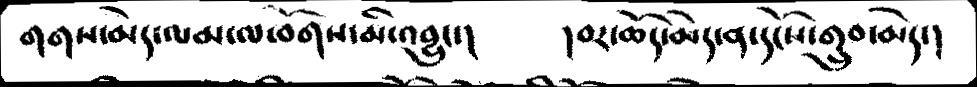གགས་མེད་ལམ་ལ་བོགས་མི་འབྱུང་།    །བར་ཆོད་མེད་ན་དངོས་གྲུབ་མེད་།
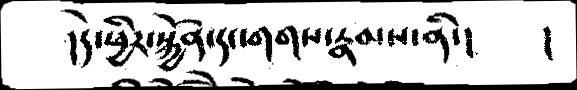།དེ་ཕྱིར་སྐྱོན་དང་གགས་རྣམས་ནི་།     །
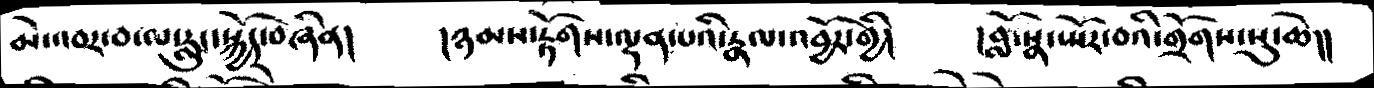མེ་འབར་བ་ལ་རླུང་སྐྱོད་བཞིན།    །ཉམས་རྟོགས་ལྡན་པའི་རྣལ་འབྱོར་གྱི།   །བློ་སྣ་སྤོར་བའི་གྲོགས་སུ་ཆེ།།
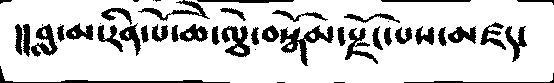།། བླ་མ་རིན་པོ་ཆེ་ལྕེ་བསྒོམ་སྫོང་པས་མཛད་
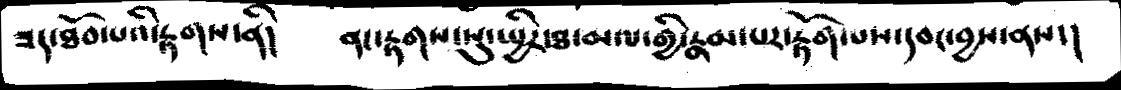ཟད་ཐོབ་པའི་རྟགས་ནི།     ནང་རྟགས་སུ་ཡྱིར་ཐ་མལ་གྱི་རྣམ་པར་རྟོག་པས་དབང་བྱས་ནས་།
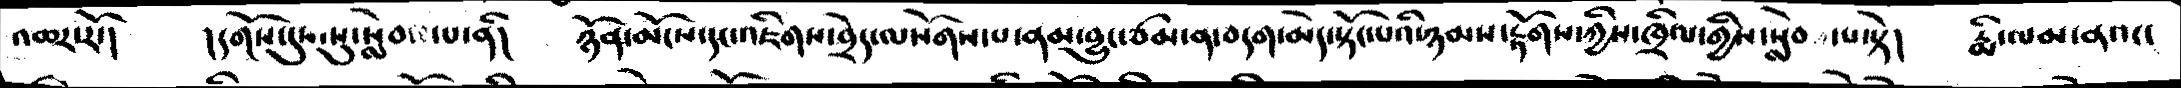འཆར་རོ་།   །དགོས་དུས་སུ་སླེབས་པ་ནི།   ཉོན་མོངས་དང་འཇིགས་བྲེད་ལསོགས་པ་ནས་བྱུང་ཙམ་ན་བདག་མེད་སྟོང་པའི་ཉམས་རྟོགས་ཀྱིས་ཁྲིལ་གྱིས་སླེབ ་པ་སྟེ།  རྨི་ལམ་ནའང་
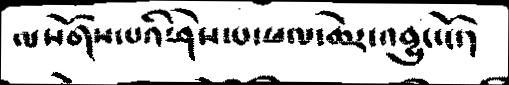ལསོགས་པའི་ཤེས་པ་ཕལ་ཆེར་འབྱུང་ངོ་།
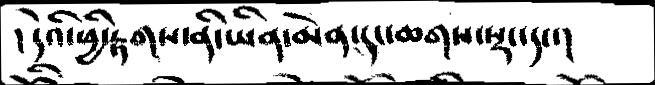། དེའི་ཕྱི་རྟགས་ནི་ཡིན་མེམ་དང་ཆགས་སྡང་དང་།
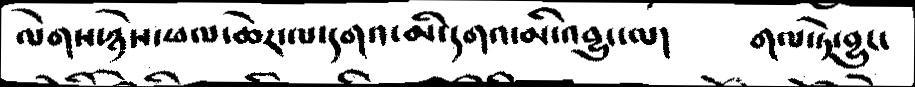ལེགས་ཉེས་ཕལ་ཆེར་ལ་དགའ་མི་དགའ་མི་འབྱུང་ལ།    གལ་ཏེ་བྱུང་
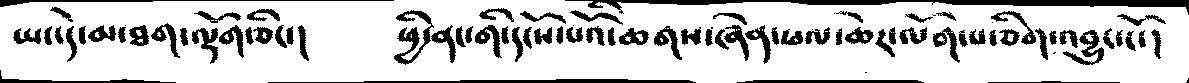ཡང་དེ་མ་ཐག་ལྡོག་ཅིང་།      ཕྱི་ནང་གི་དངོས་པོའི་ཆགས་ཞེན་ཕལ་ཆེར་ལོག་པ་ཅིག་འབྱུང་ངོ་།
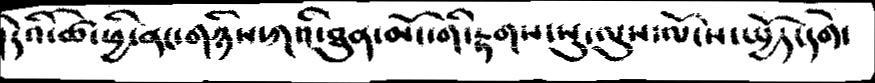། དེའི་ཚེ་ཕྱི་ནང་གཉིས་ཀའི་ཐུན་མོང་གི་རྟགས་སུ་ལུས་ལོངས་ཡྱོད་དགེ་
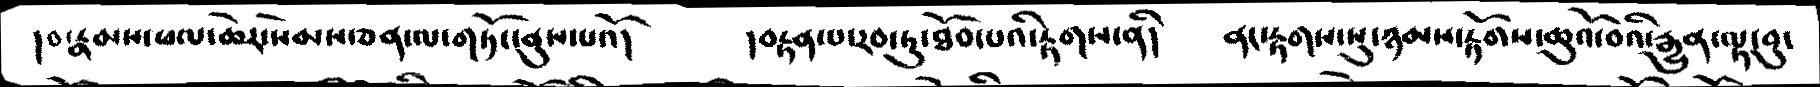།བ་རྣམས་ཕལ་ཆེར་སེམས་ཅན་ལ་གཏོང་ནུས་པའོ།    །བརྟན་པ་རབ་ཏུ་ཐོབ་པའི་རྟགས་ནི།     ནང་རྟགས་སུ་ཉམས་རྟོགས་ཆུའོ་བའི་རྒྱུན་ལྟ་བུ་
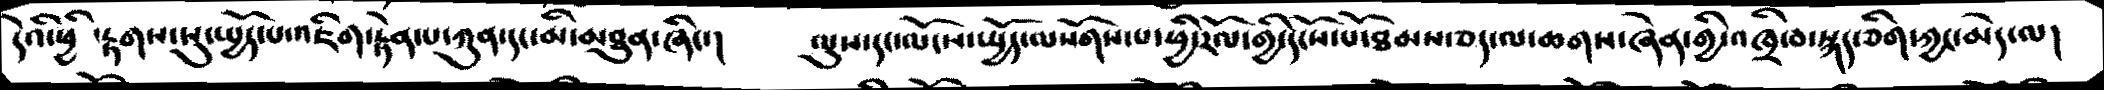དེའི་ཕྱི ་རྟགས་སུ་ཡྱོད་པ་འཇིག་རྟེན་པ་ཀུན་དང་མི་མཐུན་ཞིང་།    ལུས་དང་ལོངས་ཡྱོད་ལསོགས་པ་ཕྱི་རོལ་གྱི་དངོས་པོ་ཐམས་ཅད་ལ་ཆགས་ཞེན་གྱི་འཁྲི་བ་སྐད་ཅིག་ཀྱང་མེད་ལ།
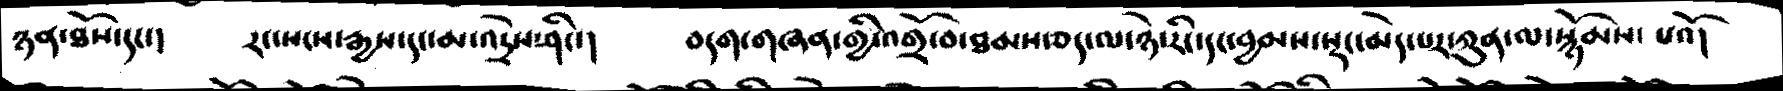ཉན་ཐོས་དང་།    རང་སངས་རྒྱས་དང་མ་འདྲེས་ཤིང་།      བདག་གཞན་གྱི་འགྲོ་བ་ཐམས་ཅད་ལ་ཉེ་རིང་དང་བྱམས་སྡང་མེད་པར་ཀུན་ལ་སྙོམས་  པའོ།
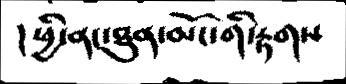། ཕྱི་ནང་ཐུན་མོང་གི་རྟགས་
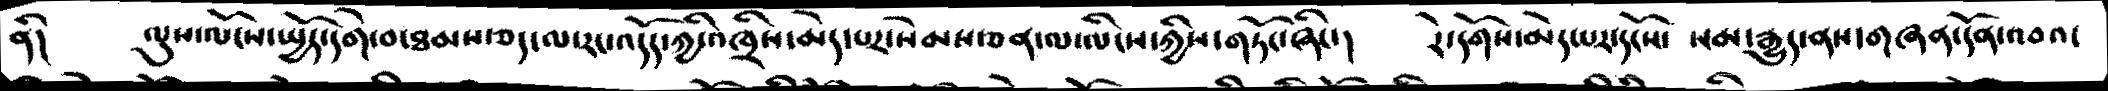ནི།    ལུས་ལོངས་ཡྱོད་དགེ་བ་ཐམས་ཅད་ལ་རང་འདོད་ཀྱིའཁྲིས་མེད་པར་སེམས་ཅན་ལ་ལིངས་ཀྱིས་གཏོང་ཞིང་།   རེ་དགོས་མེད་པར་དངོས་ སམ་རྒྱུད་ནས་གཞན་དོན་འབའ་
